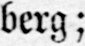berg;
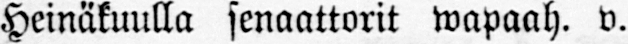Heinäkuulla senaattorit wapaah. v.
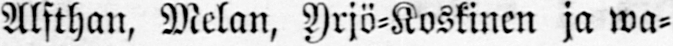Alfthan, Melan, Yrjö-Koskinen ja wa-
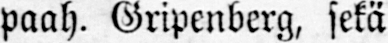paah. Gripenberg, sekä
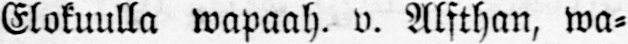Elokuulla wapaah. v. Alfthan, wa-
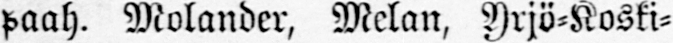paah. Molander, Melan, Yrjö-Koski-
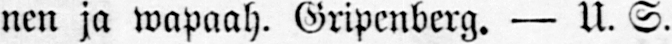nen ja wapaah. Gripenberg. — U. S.
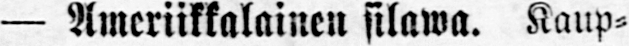— Ameriikkalainen silawa. Kaup-
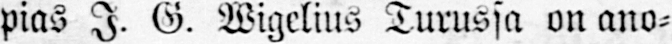pias I. G. Wigelius Turussa on ano-
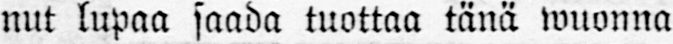nut lupaa saada tuottaa tänä wuonna
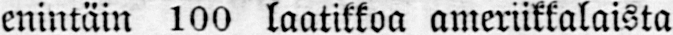enintäin 100 laatikkoa ameriikkalaista
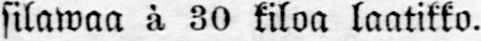silawaa à 30 kiloa laatikko.
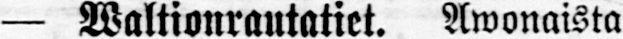— Waltionrautatiet. Awonaista
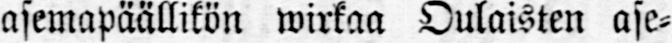asemapäällikön wirkaa Oulaisten ase-
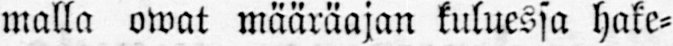malla owat määräajan kuluessa hake-
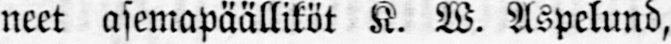neet asemapäälliköt K. W. Aspelund,
